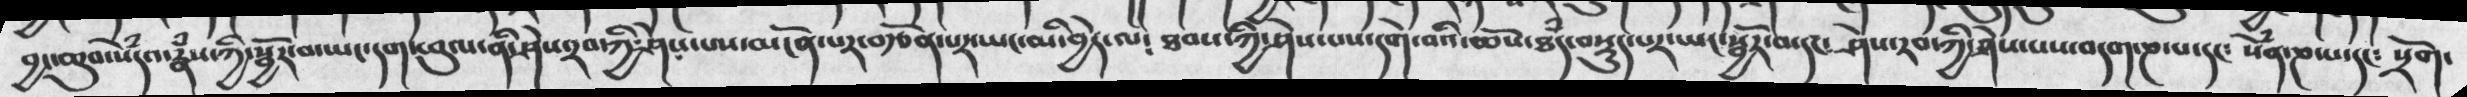བྱང་ཆུབ་སེཾདའ་རྣཾས་ཀྱི་སྦྱོར་བ་ཡང་དག་ཕུལ་ནི་ཤེས་རབ་ཀྱི་ཤེས་པས་མངོན་པར་བརྩོན་པར་ཡང་མི་བྱེད་ལ༴ ཐབས་ཀྱི་ཤེས་པས་དགེ་བའི་ཆོས་ཐཾད་བསྡུད་པར་ཡང་སྦྱོར་བ་དང་ཤེས་རབ་ཀྱི་ཤེས་པས་བདག་ཎ་པ་དང༴ སེཾན་ཎ་པ་དང༴ སྲོག་
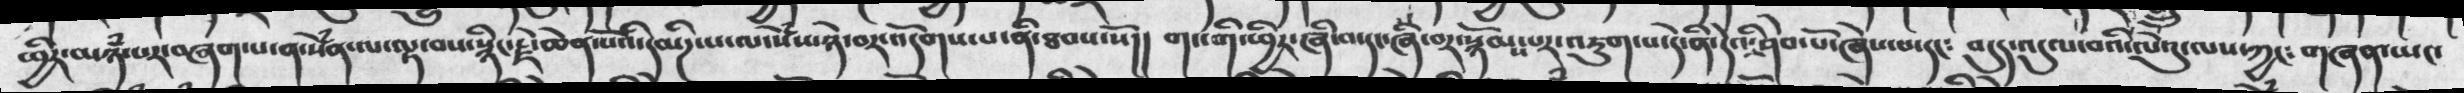ཕྱིར་མཉཾས་པར་བཞག་པ་ན་སེཾན་ལ་ལྟ་བས་སྙིང་རྗེ་ཆེན་པོའི་དམིཌ་པ་ལ་སེཾས་ཉེ་བར་འདོགས་པ་ནི་ཐབས་སོ།།  གང་གི་ཕྱིར་ཞི་བ་དང་ཞི་བར་སྙོམས་པར་འཇུག་པ་དེ་ནི་དེའི་ཤེབ་པོ་ཞེས་པ་དང༴  བདུད་འདུལ་བའི་ལེའུ་ལས་ཀྱང༴  གཞན་ཡང་
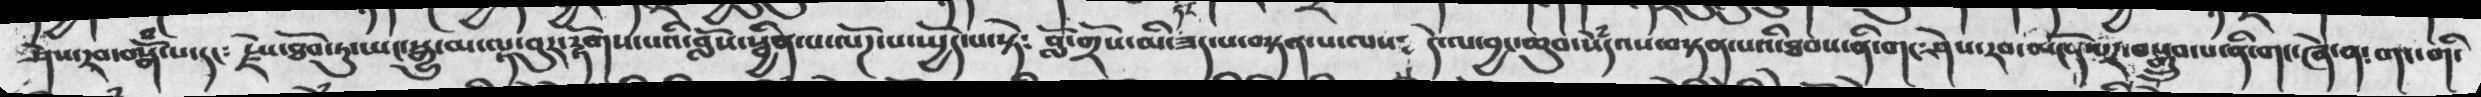ཤེས་རབ་བསྒོཾ་པ་དང༴  རྗེས་ཐོབ་ཏུ་ཡང་སྒྱུ་མ་ལྟ་བུར་རྟོགས་པའི་བློས་སྦྱིན་པ་ལོཌ་པ་སྤྱོད་པ་སྟེ༴  བློ་གྲོས་མི་ཟད་པ་བསྟན་པ་ལས༴  དེ་ལ་བྱང་ཆུབ་སེཾདའས་བསྟན་པའི་ཐབས་ནི་གང་ཤེས་རབ་མངོན་པར་བསྒྲུབ་པ་ནི་གང་ཞེ་ན༴ གང་གི་
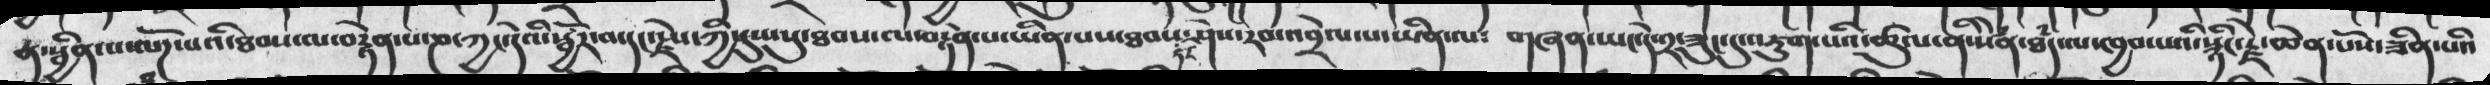རྣ་སྦྱིན་པ་ལོཌ་པའི་ཐབས་ལ་བརྟེན་པ་ཎ་ཀྱང་དེའི་སྦྱོར་བ་དང་རྗེས་ཀྱི་དུས་སུ་ཐབས་ལ་བརྟེན་པ་ཡིན་པས་ཐབས་དང་ཤེས་རབ་འབྲེལ་པ་ཡིན་ལ༴  གཞན་ཡང་དེ་༢་ཟུང་དུ་འཇུག་པའི་ཚུལ་ནི་སེཾན་ཐཾད་ལ་ཁྱབ་པའི་སྙིང་རྗེ་ཆེན་པོས་ཟིན་པའི
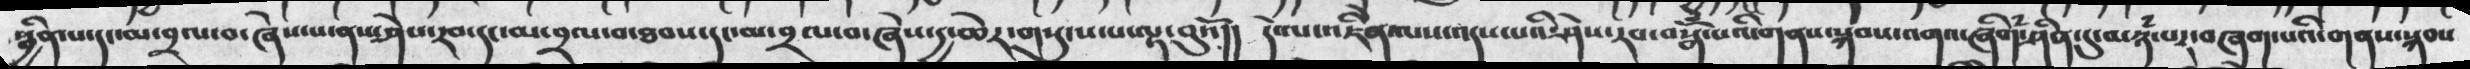སྦྱིན་པ་དང་མ་བྲལ་བ་ཞེས་པ་ནས་ཤེས་རབ་དང་མ་བྲལ་བ་ཐབས་དང་མ་བྲལ་བ་ཞེས་དྱ་ཆེར་གསུངས་པ་ལྟ་བུའོ།།  དེ་ལ་འཇིེན་ལས་འདས་པའི་ཤེས་རབ་བསྒོཾས་པའི་གནས་སྐབས་འགའ་ཞིག་ཤིན་དུ་མཉཾ་པར་བཞག་པའི་གནས་སྐབས
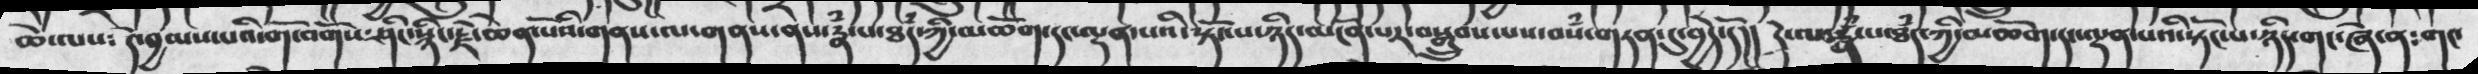ཆེ་ལས༴  དེ་བྱམས་པའི་གོ་བགོས་ཤིང་སྙིང་རྗེ་ཆེན་པོའི་གནས་ལ་གནས་ནས་རྣཾ་པ་ཐྃད་ཀྱི་མཆོག་དང་ལྡན་པའི་སྟོངས་ཉིད་མངོན་པར་བསྒྲུབས་པས་བསཾ་གཏན་དུ་བྱེད་དོ།།   དེ་ལ་རྣཾ་པ་ཐཾད་ཀྱི་མཆོག་དང་ལྡན་པའི་སྟོང་པ་ཉིད་གང་ཞེ་ན༴ གང་
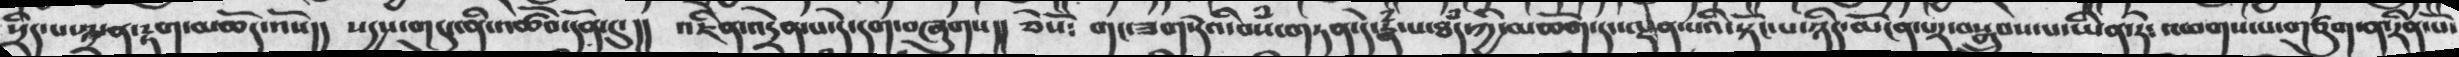སྲིད་པ་༣་ན་རྟག་མཆོད་འོས།།  སདྱས་གསུང་ནི་འཚོབ་དོན་དུ་།།  འཇིེན་འདྲེན་པ་དེ་དག་བཞུག།།   ཅེསོ༴  གང་ཟག་དེའི་བསཾ་གཏན་དེ་རྣཾ་པ་ཐཾད་ཀྱི་མཆོག་དང་ལྡན་པའི་སྟོང་པ་ཉིད་མངོན་པར་བསྒྲུབས་པ་ཡིན་ཏེ༴    འཕགས་པ་གཙུག་ན་རིན་པོ་
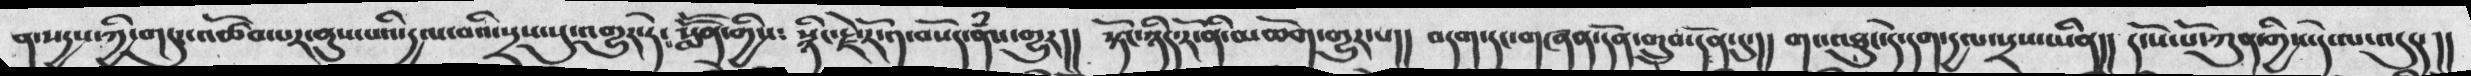ན་སདྱས་ཀྱི་གསུང་འཚོབ་པར་ནུས་པའི་དྱལ་བའི་སྲས་སུ་འགྱུར་ཏེ༴ སློོན་གྱིས༴   སྙིང་རྗེ་རོ་༡་བསོད་ནྃས་གྱུར།།  སྟོང་ཉིད་རོ་ནི་མཆོག་གྱུར་པ།།  བདག་དང་གཞན་དོན་གྲུབ་དོན་དུ་།།  གང་འཐུང་དེ་དག་དྱལ་སྲས་ཡིན།།   དངོས་པོ་ཀུན་གྱིས་དེ་ལ་འདུད་།།
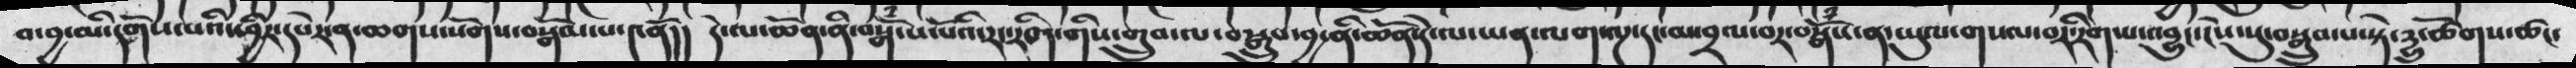བ་བྱ་མི་དགོས་པའི་ཕྱིར་དཔེར་ན་ཆགས་སོགས་བསྒོམ་པ་༤ནོ།།  དེ་ལ་ཆོན་ནི་བསྒོྃ་པ་པོའི་རང་རིག་གིས་གྲུབ་ལ་བསྒྲུབ་བྱ་ནི་ཆོན་དེ་ལ་ཡན་ལག་ལྔ་དང་མ་བྲལ་བར་བསྒོྃས་ན་ཡུལ་གསལ་བར་རིགས་པ་འབྱུང་ངེས་སུ་བསྒྲུབ་པ་སྟེ་དྱུ་ཚོགས་ཚང་
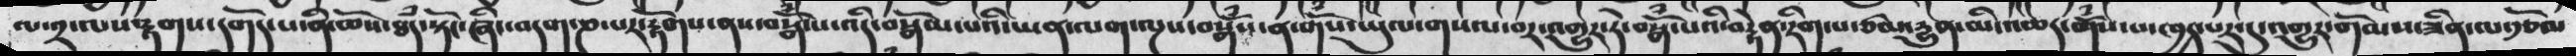ལ་༢་ལས་རྟགས་དགོད་པ་ནི་ཆོས་ཐཾད་སྟོང་ཞིང་བདག་ཎ་པར་རྟོགས་ནས་བསྒོྃས་འདི་བསྒོམ་པའི་ཡན་ལག་ལྔས་བསྒོྃས་ན་གསོ་ཡུལ་གསལ་བར་འགྱུར་ཏེ་བསྒོྃ་པའི་བརྟེན་རིག་པ་ཙམ་དྱུན་མི་འཆད་གོྃས་པ་ཁྱད་པར་དུ་འགྱུར་གོམས་ཟིན་ལ་རྩོམ
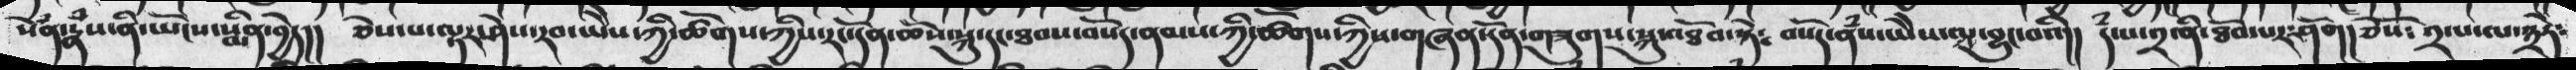སེཾན་རྣཾས་ནི་ཡོངས་སྨིན་བྱེད།།  ཅེས་པ་ལྟར་ཤེས་རབ་ཡཻས་ཀྱི་ཚོགས་ཀྱིས་རང་དོན་ཆོས་སྐུ་དང་ཐབས་བསོད་ནམས་ཀྱི་ཚོགས་ཀྱིས་གཞན་དོན་གཟུགས་སྐུ་འཐོབ་སྟེ༴ བསོད་ནཾས་ཡཻས་ལ་བྱུང་བའི།། དཾ་པ་༢་ནི་ཐོབ་པར་ཤོག།ཅེསོ༴ ༢་པ་ལ་༣ཏེ༴
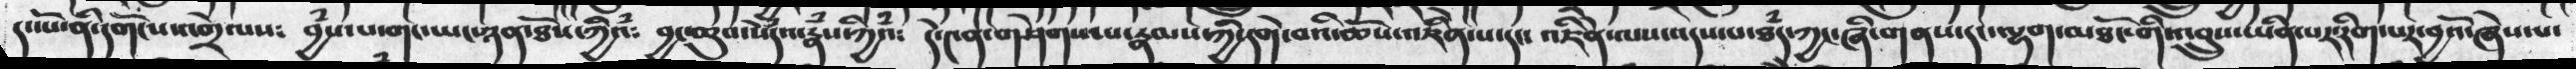དང་པོ་ནི་དགོངས་འགྲེལས༴ བྱཾས་པ་གང་ཡང་ཉན་ཐོས་ཀྱིའཾ༴ བྱང་ཆུབ་སེཾདའ་རྣཾས་ཀྱིའཾ༴ དེ་༤ན་གཤེགས་པ་རྣམས་ཀྱི་དགེ་བའི་ཆོས་འཇིེན་པ་དང་ འཇིེན་ལས་འདས་པ་ཐཾད་ཀྱང་ཞི་གནས་དངལྷག་མཐོང་གི་འབྲུས་ཡིན་པར་རིག་པར་བྱའོ་ཞེས་པ་
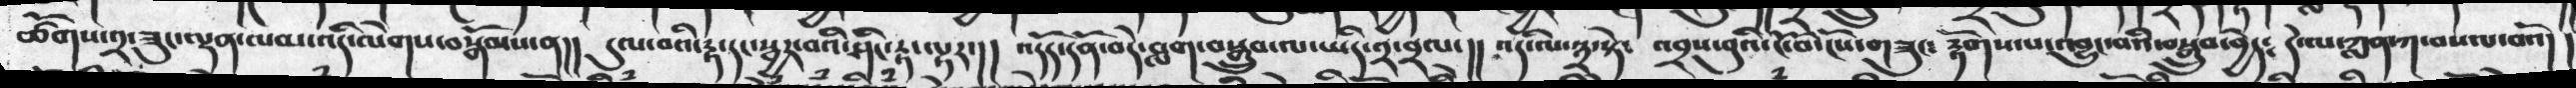ཚོགས་༢་ཟུང་ལྡན་ལྡན་ལམ་འདི་ལེགས་བསྒོམས་ན།།  དུལ་བའི་རྟ་དང་སྦྱར་བའི་ཤིང་རྟ་ལྟར་།།  འདོད་དོན་བདེ་བླག་བསྒྲུབ་ལ་ཡིད་༢་བྲལ་།།  འདི་ལ་༣་སྟེ༴  འབྲས་བུའི་ངོ་བོ་ངོས་གཟུང༴ རྟོགས་པ་འབྱུང་བའི་བསྒྲུབ་བྱེད༴  དེ་ལ་ཀླན་ཀ་བསལ་བའོ།།
